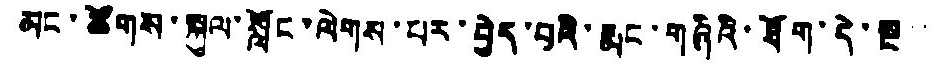མང་ཚོགས་སྐུལ་སློང་ལེགས་པར་བྱེད་པའི་རྨང་གཞིའི་ཐོག་དེ་སྔ་་
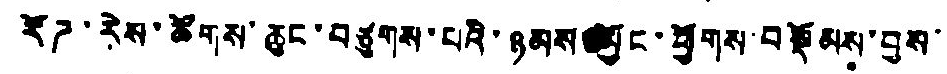རོཌ་རེས་ཚོགས་ཆུང་བཙུགས་པའི་ཉམས་མྱོང་ཕྱོགས་བསྡོམས་བྱས་
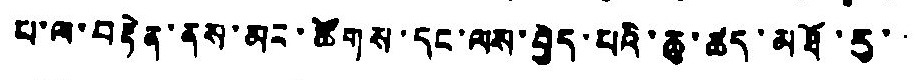པ་ལ་བརྟེན་ནས་མང་ཚོགས་དང་ལས་བྱེད་པའི་ཆུ་ཚད་མཐོ་རུ་
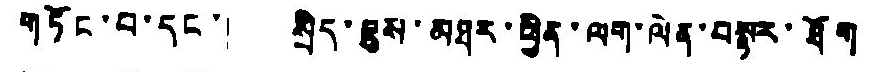གཏོང་བ་དང་། སྲིད་ཇུས་མཐར་ཕྱིན་ལག་ལེན་བསྟར་ཐོག
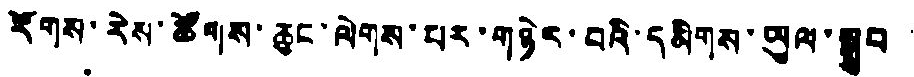རོགས་རེས་ཚོགས་ཆུང་ལེགས་པར་གཉེར་བའི་དམིགས་ཡུལ་སྒྲུབ
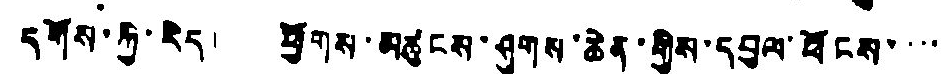དགོས་ཀྱི་རེད། ཕྱོགས་མཚུངས་ཤུགས་ཆེན་གྱིས་དབྱལ་ལོངས་་་་
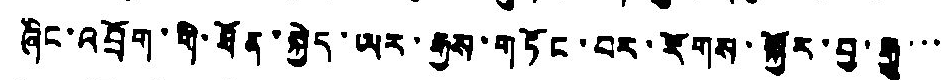ཞིང་འབྲོག་གི་ཐོན་སྐྱེད་ཡར་རྒྱས་གཏོང་བར་རོགས་སྐྱོར་བྱ་རྒྱུ་་་
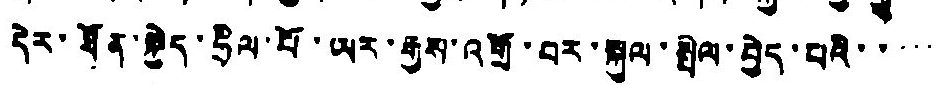དེར་ཐོན་སྐྱེད་ཧྲིལ་པོ་ཡར་རྒྱས་འགྲོ་བར་སྐུལ་སྤེལ་བྱེད་པའི་་་་་
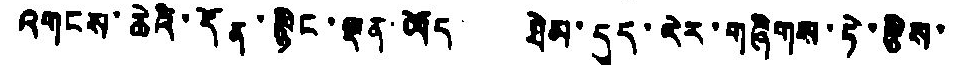འགངས་ཆེའི་དོན་སྙིང་ལྡན་ཡོད ཐེམ་དུད་རེར་གཞིགས་ཏེ་རྩིས་
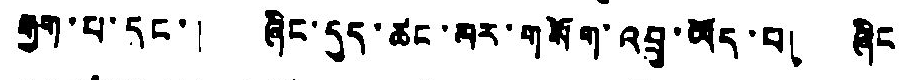རྒྱག་པ་དང་། ཞིང་དུད་ཚང་མར་གསོག་འབྲུ་ཡོད་པ། ཞིང
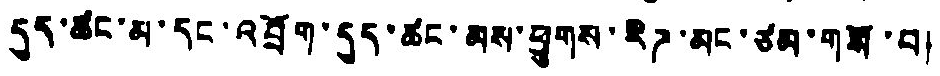དུར་ཚང་མ་དང་འབྲོག་དུད་ཚང་མས་ཕྱུགས་རིཌ་མང་ཙམ་གསོ་བ།
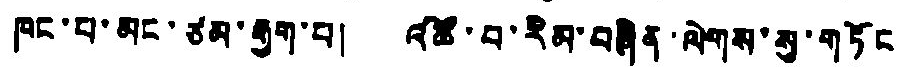ཁང་པ་མང་ཙམ་རྒྱག་པ། འཚོ་བ་རིམ་བཞིན་ལེགས་སུ་གཏོང
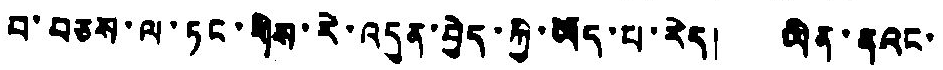བ་བཅས་ལ་ཏང་གིས་རེ་འདུན་བྱེད་ཀྱི་ཡོད་པ་རེད། ཡིན་ནའང་
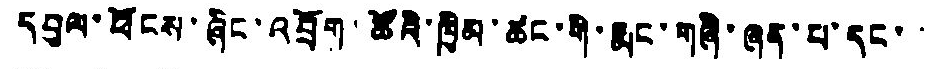དབྱུལ་ཕོངས་ཞིང་འབྲོག་ཚོའི་ཁྱིམ་ཚང་གི་རྨང་གཞི་ཞན་པ་དང་།
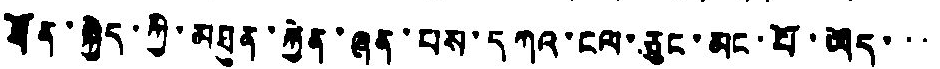ཐོན་སྐྱེད་ཀྱི་མཐུན་རྐྱེན་ཞན་པས་དཀའ་ངལ་ཅུང་མང་པོ་ཡོད་་་
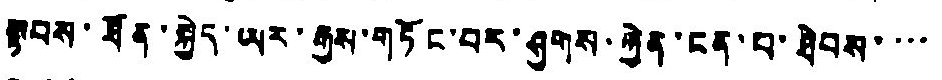སྟབས་ཐོན་སྐྱེད་ཡར་རྒྱས་གཏོང་བར་ཞུགས་རྐྱེན་ངན་པ་ཐེབས་་་་
